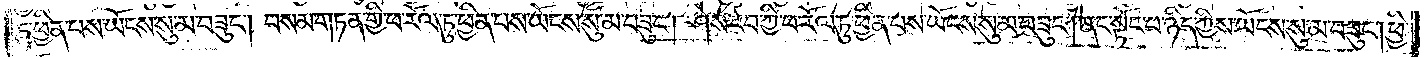ཏུ་ཕྱིན་པས་ཡོངས་སུ་མ་བཟུང༌། བསམ་གཏན་གྱི་ཕ་རོལ་ཏུ་ཕྱིན་པས་ཡོངས་སུ་མ་བཟུང༌། ཤེས་རབ་ཀྱི་ཕ་རོལ་ཏུ་ཕྱིན་པས་ཡོངས་སུ་མ་བཟུང༌། ནང་སྟོང་པ་ཉིད་ཀྱིས་ཡོངས་སུ་མ་བཟུང༌། ཕྱི་
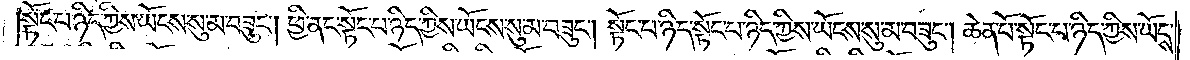སྟོང་པ་ཉིད་ཀྱིས་ཡོངས་སུ་མ་བཟུང༌། ཕྱི་ནང་སྟོང་པ་ཉིད་ཀྱིས་ཡོངས་སུ་མ་བཟུང༌། སྟོང་པ་ཉིད་སྟོང་པ་ཉིད་ཀྱིས་ཡོངས་སུ་མ་བཟུང༌། ཆེན་པོ་སྟོང་པ་ཉིད་ཀྱིས་ཡོངས་
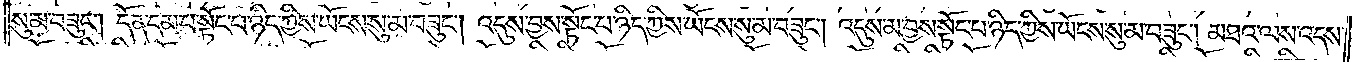སུ་མ་བཟུང༌། དོན་དམ་པ་སྟོང་པ་ཉིད་ཀྱིས་ཡོངས་སུ་མ་བཟུང༌། འདུས་བྱས་སྟོང་པ་ཉིད་ཀྱིས་ཡོངས་སུ་མ་བཟུང༌། འདུས་མ་བྱས་སྟོང་པ་ཉིད་ཀྱིས་ཡོངས་སུ་མ་བཟུང༌། མཐའ་ལས་འདས་
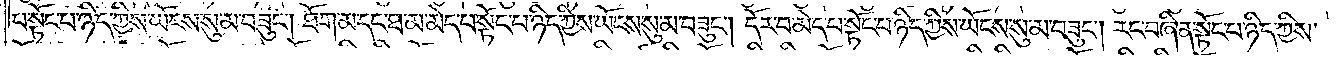པ་སྟོང་པ་ཉིད་ཀྱིས་ཡོངས་སུ་མ་བཟུང༌། ཐོག་མ་དང་ཐ་མ་མེད་པ་སྟོང་པ་ཉིད་ཀྱིས་ཡོངས་སུ་མ་བཟུང༌། དོར་བ་མེད་པ་སྟོང་པ་ཉིད་ཀྱིས་ཡོངས་སུ་མ་བཟུང༌། རང་བཞིན་སྟོང་པ་ཉིད་ཀྱིས་
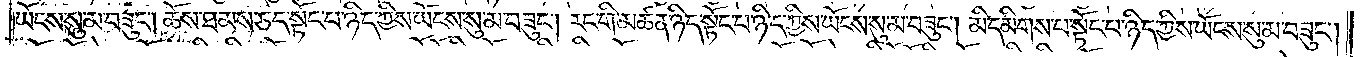ཡོངས་སུ་མ་བཟུང༌། ཆོས་ཐམས་ཅད་སྟོང་པ་ཉིད་ཀྱིས་ཡོངས་སུ་མ་བཟུང༌། རང་གི་མཚན་ཉིད་སྟོང་པ་ཉིད་ཀྱིས་ཡོངས་སུ་མ་བཟུང༌། མི་དམིགས་པ་སྟོང་པ་ཉིད་ཀྱིས་ཡོངས་སུ་མ་བཟུང༌།
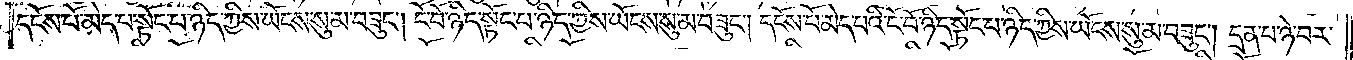དངོས་པོ་མེད་པ་སྟོང་པ་ཉིད་ཀྱིས་ཡོངས་སུ་མ་བཟུང༌། ངོ་བོ་ཉིད་སྟོང་པ་ཉིད་ཀྱིས་ཡོངས་སུ་མ་བཟུང༌། དངོས་པོ་མེད་པའི་ངོ་བོ་ཉིད་སྟོང་པ་ཉིད་ཀྱིས་ཡོངས་སུ་མ་བཟུང༌། དྲན་པ་ཉེ་བར་
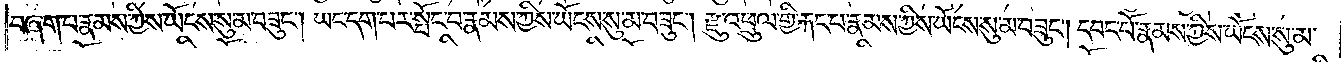བཞག་པ་རྣམས་ཀྱིས་ཡོངས་སུ་མ་བཟུང༌། ཡང་དག་པར་སྤོང་བ་རྣམས་ཀྱིས་ཡོངས་སུ་མ་བཟུང༌། རྫུ་འཕྲུལ་གྱི་རྐང་པ་རྣམས་ཀྱིས་ཡོངས་སུ་མ་བཟུང༌། དབང་པོ་རྣམས་ཀྱིས་ཡོངས་སུ་མ་
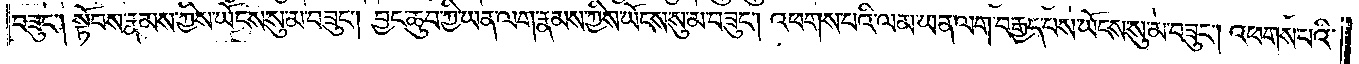བཟུང༌། སྟོབས་རྣམས་ཀྱིས་ཡོངས་སུ་མ་བཟུང༌། བྱང་ཆུབ་ཀྱི་ཡན་ལག་རྣམས་ཀྱིས་ཡོངས་སུ་མ་བཟུང༌། འཕགས་པའི་ལམ་ཡན་ལག་བརྒྱད་པས་ཡོངས་སུ་མ་བཟུང༌། འཕགས་པའི་
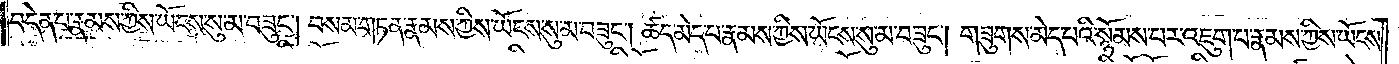བདེན་པ་རྣམས་ཀྱིས་ཡོངས་སུ་མ་བཟུང༌། བསམ་གཏན་རྣམས་ཀྱིས་ཡོངས་སུ་མ་བཟུང༌། ཚད་མེད་པ་རྣམས་ཀྱིས་ཡོངས་སུ་མ་བཟུང༌། གཟུགས་མེད་པའི་སྙོམས་པར་འཇུག་པ་རྣམས་ཀྱིས་ཡོངས་
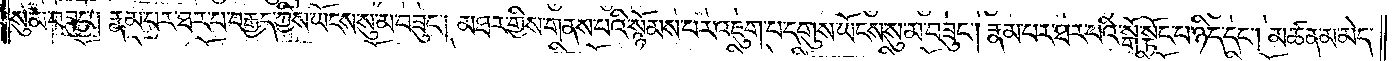སུ་མ་བཟུང༌། རྣམ་པར་ཐར་པ་བརྒྱད་ཀྱིས་ཡོངས་སུ་མ་བཟུང༌། མཐར་གྱིས་གནས་པའི་སྙོམས་པར་འཇུག་པ་དགུས་ཡོངས་སུ་མ་བཟུང༌། རྣམ་པར་ཐར་པའི་སྒོ་སྟོང་པ་ཉིད་དང༌། མཚན་མ་མེད་
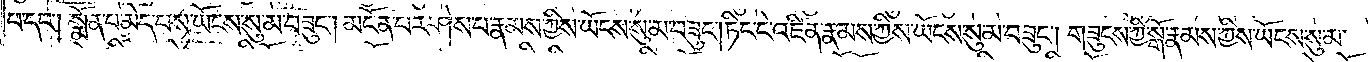པ་དང༌། སྨོན་པ་མེད་པས་ཡོངས་སུ་མ་བཟུང༌། མངོན་པར་ཤེས་པ་རྣམས་ཀྱིས་ཡོངས་སུ་མ་བཟུང༌། ཏིང་ངེ་འཛིན་རྣམས་ཀྱིས་ཡོངས་སུ་མ་བཟུང༌། གཟུངས་ཀྱི་སྒོ་རྣམས་ཀྱིས་ཡོངས་སུ་མ་
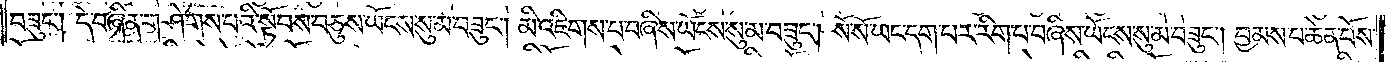བཟུང༌། དེ་བཞིན་གཤེགས་པའི་སྟོབས་བཅུས་ཡོངས་སུ་མ་བཟུང༌། མི་འཇིགས་པ་བཞིས་ཡོངས་སུ་མ་བཟུང༌། སོ་སོ་ཡང་དག་པར་རིག་པ་བཞིས་ཡོངས་སུ་མ་བཟུང༌། བྱམས་པ་ཆེན་པོས་
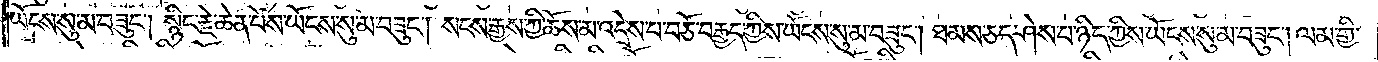ཡོངས་སུ་མ་བཟུང༌། སྙིང་རྗེ་ཆེན་པོས་ཡོངས་སུ་མ་བཟུང༌། སངས་རྒྱས་ཀྱི་ཆོས་མ་འདྲེས་པ་བཅོ་བརྒྱད་ཀྱིས་ཡོངས་སུ་མ་བཟུང༌། ཐམས་ཅད་ཤེས་པ་ཉིད་ཀྱིས་ཡོངས་སུ་མ་བཟུང༌། ལམ་གྱི་
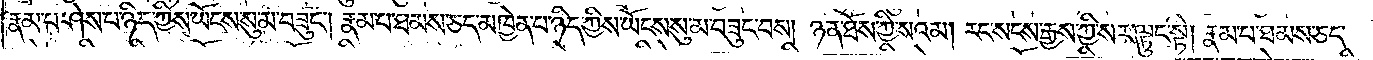རྣམ་པ་ཤེས་པ་ཉིད་ཀྱིས་ཡོངས་སུ་མ་བཟུང༌། རྣམ་པ་ཐམས་ཅད་མཁྱེན་པ་ཉིད་ཀྱིས་ཡོངས་སུ་མ་བཟུང་བས། ཉན་ཐོས་ཀྱི་སའམ། རང་སངས་རྒྱས་ཀྱི་སར་ལྟུང་སྟེ། རྣམ་པ་ཐམས་ཅད་
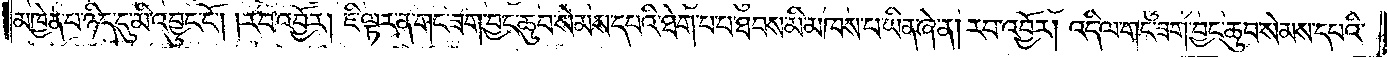མཁྱེན་པ་ཉིད་དུ་མི་འབྱུང་ངོ༌། །རབ་འབྱོར། དེ་ཇི་ལྟར་ན་གང་ཟག་བྱང་ཆུབ་སེམས་དཔའི་ཐེག་པ་པ་ཐབས་མི་མཁས་པ་ཡིན་ཞེ་ན། རབ་འབྱོར། འདི་ལ་གང་ཟག་བྱང་ཆུབ་སེམས་དཔའི་
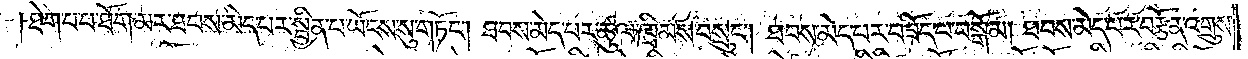ཐེག་པ་པ་ཐོག་མར་ཐབས་མེད་པར་སྦྱིན་པ་ཡོངས་སུ་གཏོང༌། ཐབས་མེད་པར་ཚུལ་ཁྲིམས་བསྲུང༌། ཐབས་མེད་པར་བཟོད་པ་བསྒོམ། ཐབས་མེད་པར་བརྩོན་འགྲུས་
